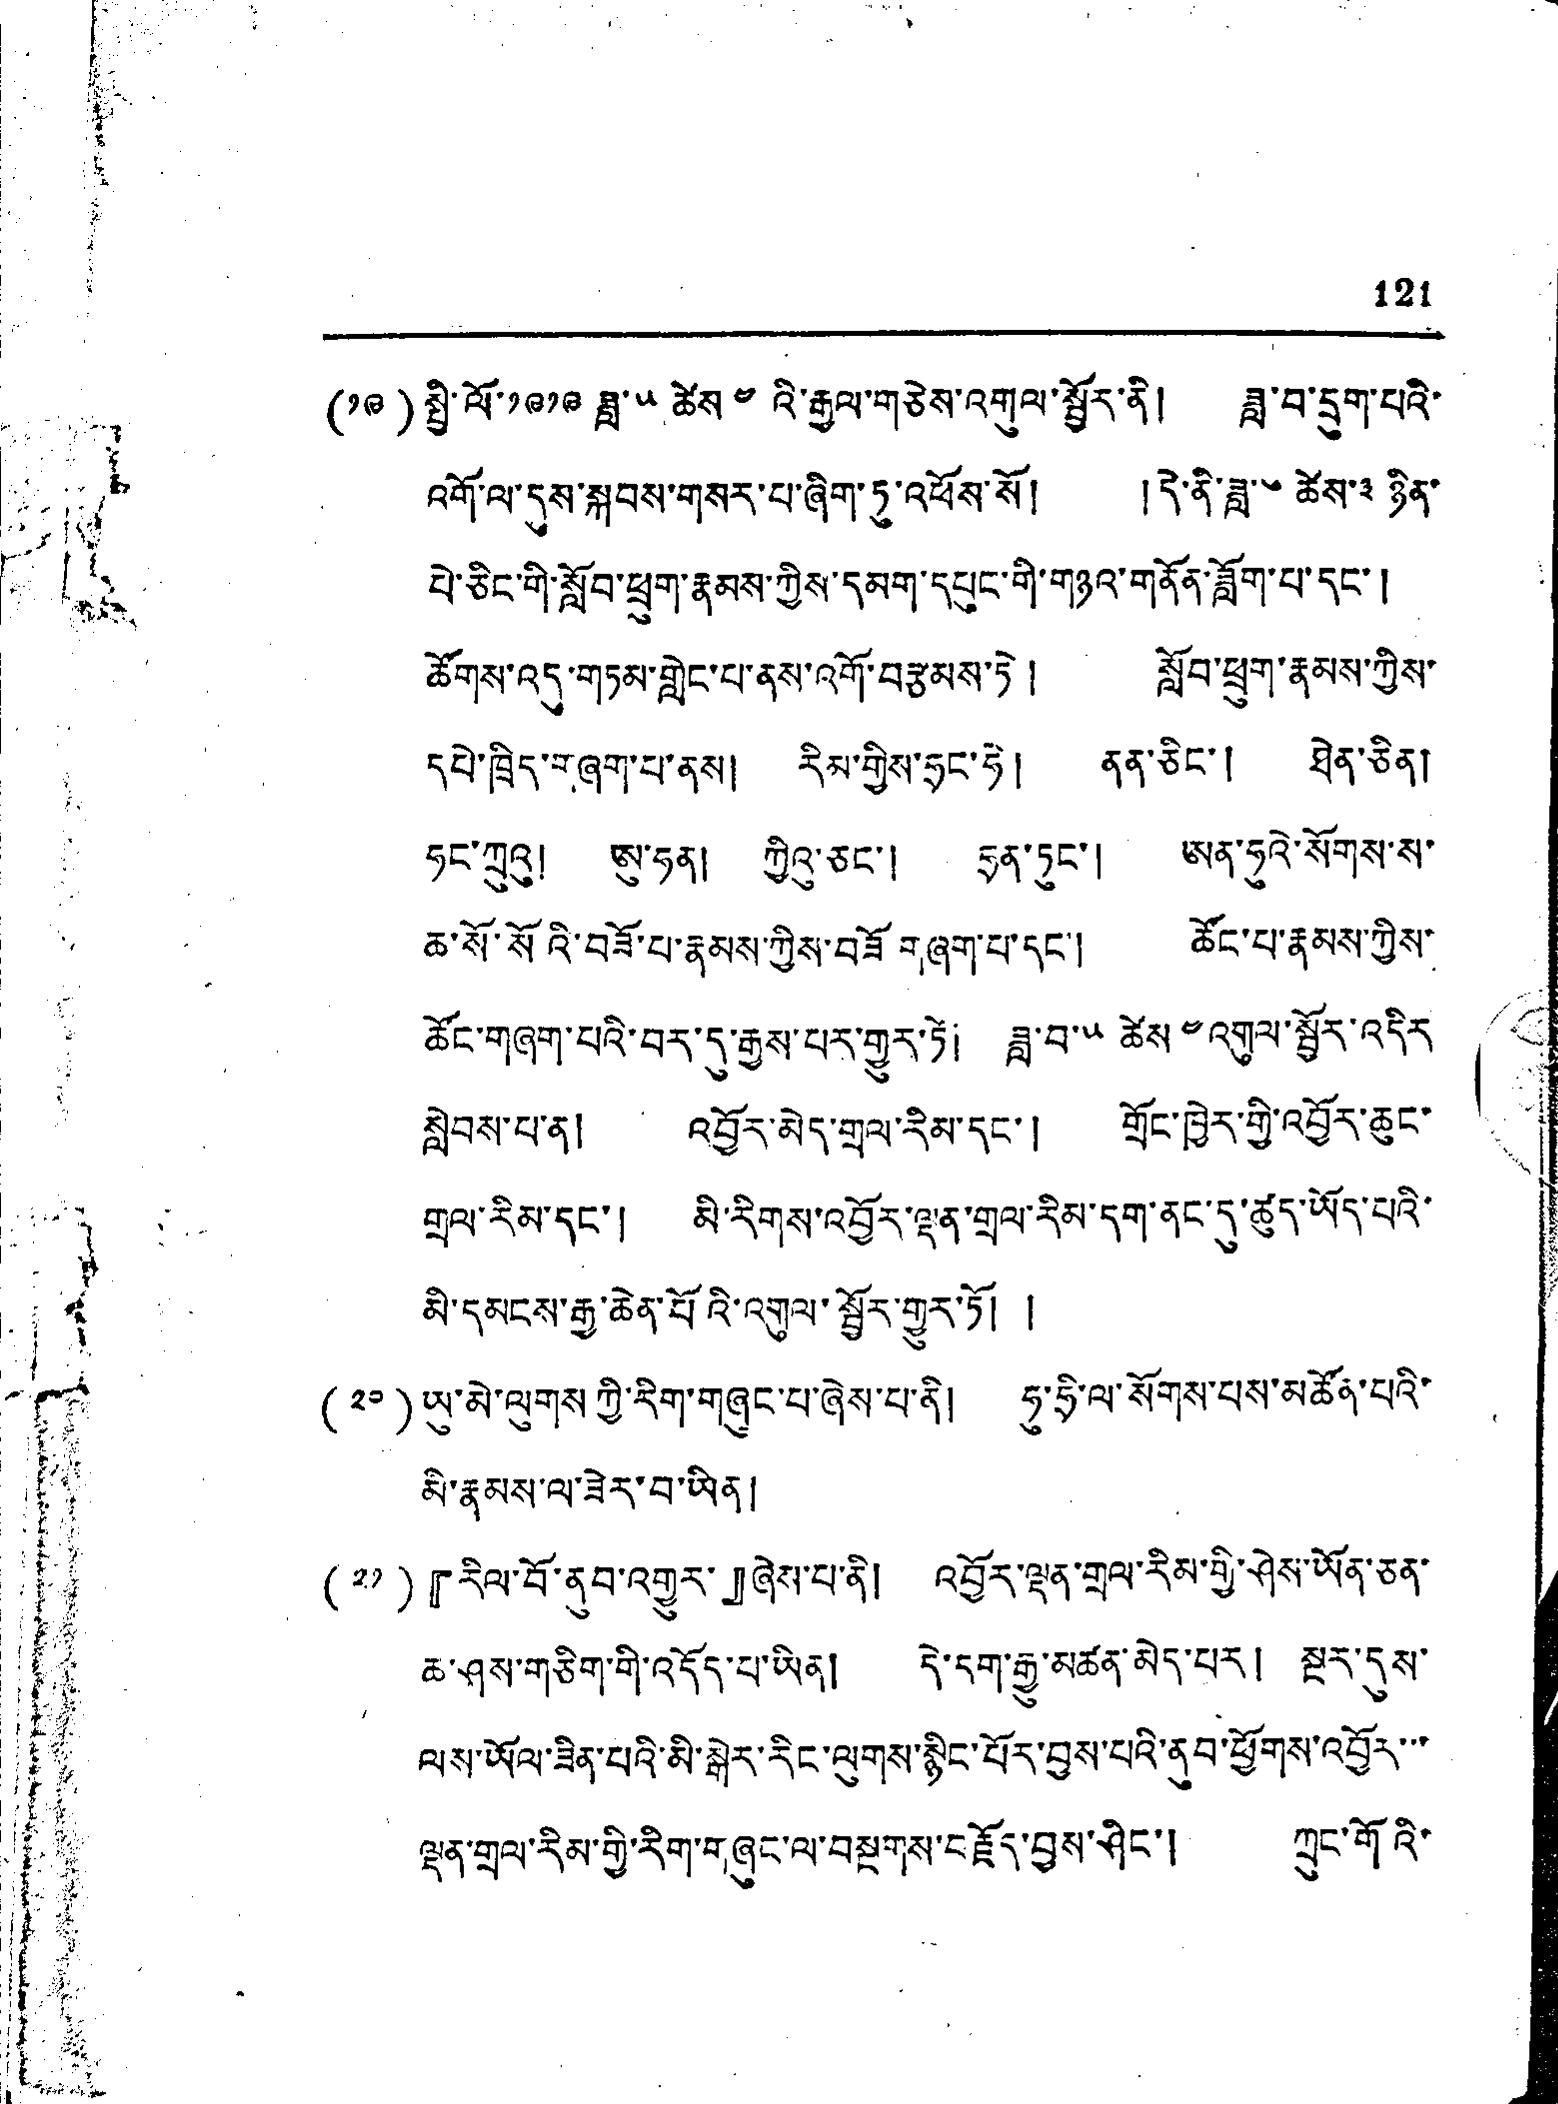121
(༡༩)སྤྱི་ལོ་༡༩༡༩ ཟླ་༥ ཚེས་༤འི་རྒྱལ་གཅེས་འགུལ་སྦྱོར་ནི། ཟླ་བ་དྲུག་པའི་
འགོ་ལ་དུས་སྐབས་གསར་པ་ཞིག་ཏུ་འཕོས་སོ། །དེ་ནི་ཟླ་༦ ཚེས་༣ ཉིན་
པེ་ཅིང་གི་སློབ་ཕྲུག་རྣམས་ཀྱིས་དམག་དཔུང་གི་གཉའ་གནོན་ཟློག་པ་དང་།
ཚོགས་འདུ་གཏམ་གླེང་པ་ནས་འགོ་བརྩམས་ཏེ། སློབ་ཕྲུག་རྣམས་ཀྱིས་
དཔེ་ཁྲིད་གཞག་པ་ནས། རིམ་གྱི་ཧྲང་ཧེ། ནན་ཅིང་། ཐེན་ཅིན།
ཧང་ཀྲུའུ། ཨུ་ཧན། ཀྱིའུ་ཅང་། ཧྲན་ཏུང་། ཨན་ཧུའེ་སོགས་ས་
ཆ་སོ་སོའི་བཟོ་པ་རྣམས་ཀྱིས་བཟོ་གཞག་པ་དང་། ཚོང་པ་རྣམས་ཀྱིས་
ཚོང་གཞག་པའི་བར་དུ་རྒྱས་པར་གྱུར་ཏེ། ཟླ་བ་༥ ཚེས་༤ འགུལ་སྦྱོར་འདིར
སླེབས་པ་ན། འབྱོར་མེད་གྲལ་རིམ་དང་། གྲོང་ཁྱེར་གྱི་འབྱོར་ཆུང་
གྲལ་རིམ་དང་། མི་རིགས་འབྱོར་ལྡན་གྲལ་རིམ་དག་ནང་དུ་ཚུད་ཡོད་པའི་
མི་དམངས་རྒྱ་ཆེན་པོའི་འགུལ་སྦྱོར་གྱུར་ཏོ། །
(༢༠)ཡུ་མེ་ལུགས་ཀྱི་རིག་གཞུང་པ་ཞེས་པ་ནི། ཧུ་ཧྲི་ལ་སོགས་པས་མཚོན་པའི་
མི་རྣམས་ལས་ཟེར་བ་ཡིན།
(༢༡)『རིལ་བོ་ནུབ་འགྱུར་』ཞེས་པ་ནི། འབྱོར་ལྡན་གྲལ་རིམ་གྱི་ཤེས་ཡོན་ཅན་
ཆ་ཤས་གཅིག་གི་འདོད་པ་ཡིན། དེ་དག་རྒྱུ་མཚན་མེད་པར། སྔར་དུས་
ལས་ཡོལ་ཟིན་པའི་མི་སྒེར་རིང་ལུགས་སྙིང་པོར་བྱས་པའི་ནུབ་ཕྱོགས་འབྱོར་་་
ལྡན་གྲལ་རིམ་གྱི་རིག་གཞུང་ལ་བསྔགས་བརྗོད་བྱས་ཤིང་། ཀྲུང་གོའི་
